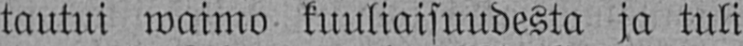tautui waimo kuuliaisuudesta ja tuli
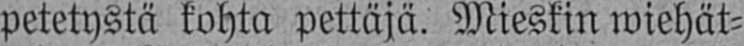petetystä kohta pettäjä. Mieskin wiehät-
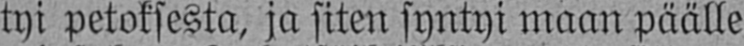tyi petoksesta, ja siten syntyi maan päälle
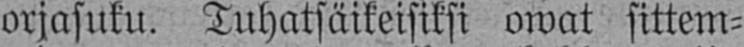orjasuku. Tuhatsäikeisiksi owat sittem-
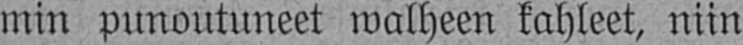min punoutuneet walheen kahleet, niin
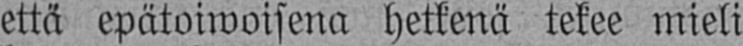että epätoiwoisena hetkenä tekee mieli
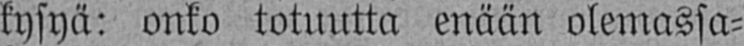kysyä: onko totuutta enään olemassa-
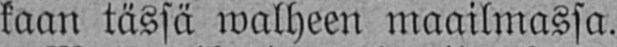kaan tässä walheen maailmassa.
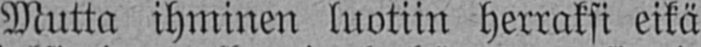Mutta ihminen luotiin herraksi eikä
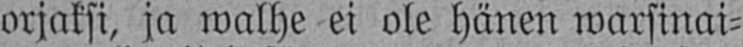orjaksi, ja walhe ei ole hänen warsinai-
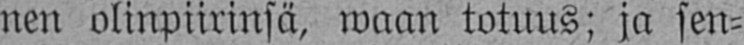nen olinpiirinsä, waan totuus; ja sen-
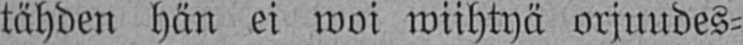tähden hän ei woi wiihtyä orjuudes-
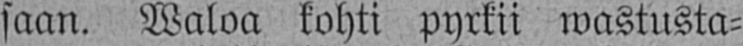saan. Waloa kohti pyrkii wastusta-
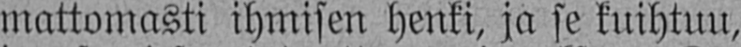mattomasti ihmisen henki, ja se kuihtuu,
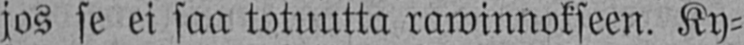jos se ei saa totuutta rawinnokseen. Ky-
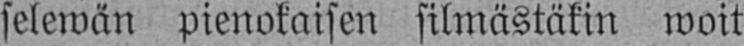selewän pienokaisen silmästäkin woit
